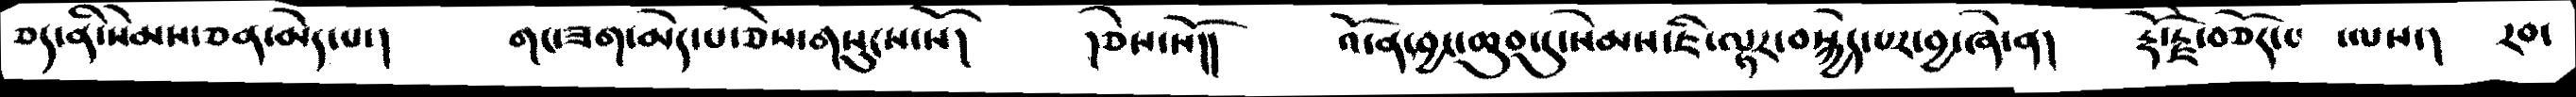ཅད་ནི་སེམས་ཅན་མེད་པ་།  གང་ཟག་མེད་པ་ཅེས་གསུངས་སོ།  །ཅེས་སོ།།  འོ་ན་བྱང་ཆུབ་དུ་སེམས་ཇི་ལྟར་བསྐྱེད་པར་བྱ་ཞེ་ན།   རྡོ་རྗེ་བཅོད་པ  ་ལས་། རབ་
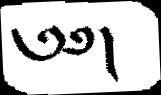༄༅།
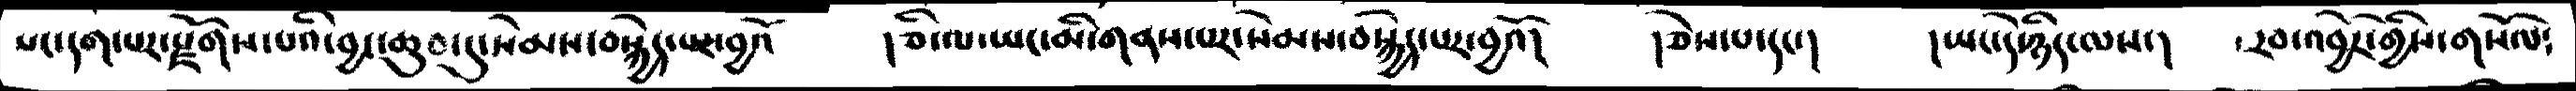སང་དག་པར་རྫོགས་པའི་བྱང་ཆུབ་དུ་སེམས་བསྐྱེད་པར་བྱའོ   །ཅི་ལ་ཡང་མི་གནས་པར་སེམས་བསྐྱེད་པར་བྱའོ།  །ཅེས་པ་དང་།  །ཡང་དེ་ཉིད་ལས་།  རབ་འབྱོར་གྱིས་གསོལ༴
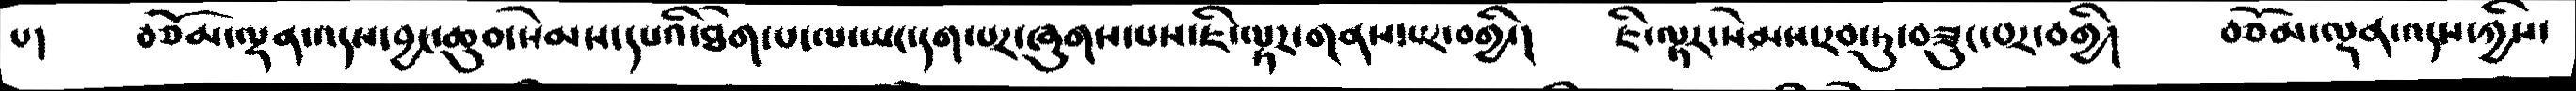པ།  བཅོམ་ལྡན་འདས་བྱང་ཆུབ་སེམས་དཔའི་ཐེག་པ་ལ་ཡང་དག་པར་ཞུགས་པས་ཇི་ལྟར་གནས་པར་བགྱི་།  ཇི་ལྟར་སེམས་རབ་ཏུ་བཟུང་བར་བགྱི།   བཅོམ་ལྡན་འདས་ཀྱིས་
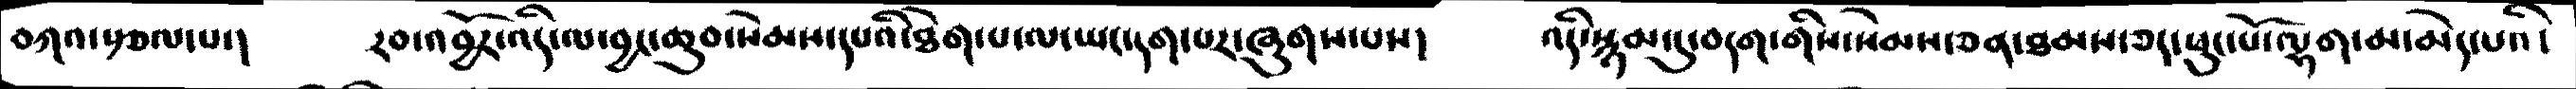བཀའ་སྩལ་པ་།   རབ་འབྱོར་འདི་ལ་བྱང་ཆུབ་སེམས་དཔའི་ཐེག་པ་ལ་ཡང་དག་པར་ཞུགས་པས།  འདི་སྙམ་དུ་བདག་གིས་སེམས་ཅན་ཐམས་ཅད་ཕུང་པོ་ལྷག་མ་མེད་པའི་
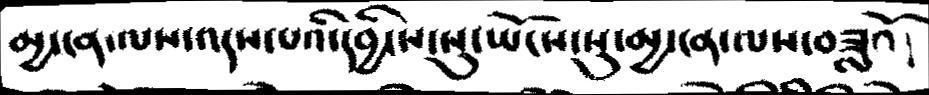མྱ་ངན་ལས་འདས་པའི་དབྱིངས་སུ་ཡོངས་སུ་མྱ་ངན་ལས་བཟླའོ།
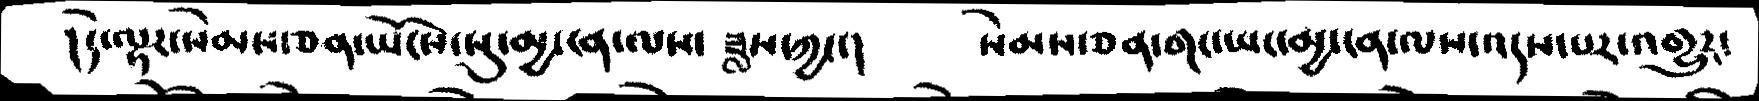།དེ་ལྟར་སེམས་ཅན་ཡོངས་སུ་མྱ་ངན་ལས་ཟླས་ཀྱང་།  སེམས་ཅན་གང་ཡང་མྱ་ངན་ལས་འདས་པར་འགྱུར་
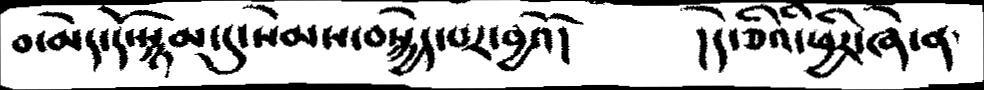བ་མེད་དོ་སྙམ་དུ་སེམས་བསྐྱེད་པར་བྱའོ།  །དེ་ཅིའི་ཕྱིར་ཞེ་ན་
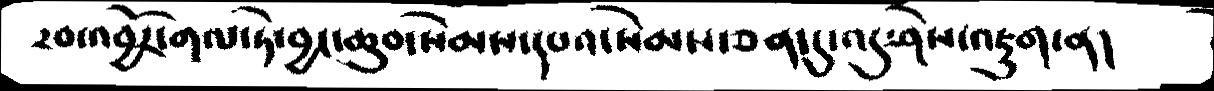རབ་འབྱོར་གལ་ཏེ་བྱང་ཆུབ་སེམས་དཔའ་སེམས་ཅན་དུ་འདུ་ཤེས་འཇུག་ན།
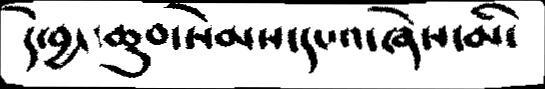དེ་བྱང་ཆུབ་སེམས་དཔའ་ཞེས་མི་
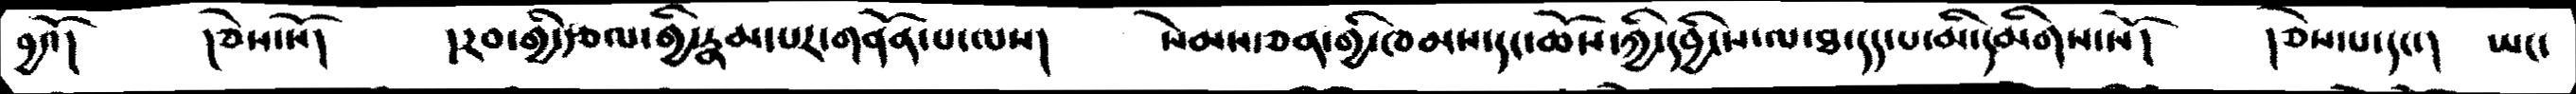བྱའོ།  །ཅེས་སོ།   །རབ་གྱི་རྩལ་གྱི་རྣམ་པར་གནོན་པ་ལས།  སེམས་ཅན་གྱི་ཁམས་དང་ཆོས་ཀྱི་དབྱིངས་ལ་ཐ་དད་པ་མི་དམིགས་སོ།   །ཅེས་པ་དང་། ཡང་
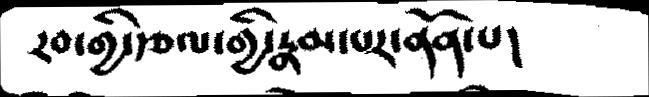རབ་གྱི་རྩལ་གྱི་རྣམ་པར་ནོན་པ།
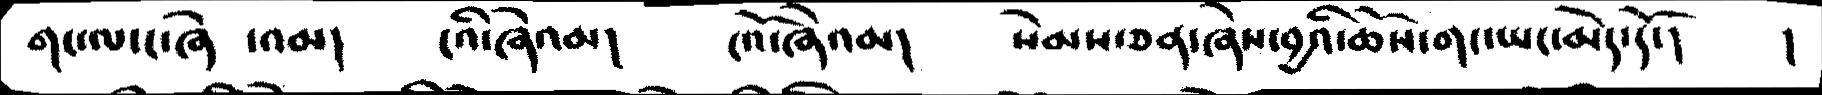གང་ལ་ང་ཞེ  ་འམ།  ངའི་ཞེའམ།  ངའོ་ཞེའམ།   སེམས་ཅན་ཞེས་བྱའི་ཆོས་གང་ཡང་མེད་དོ་།   །
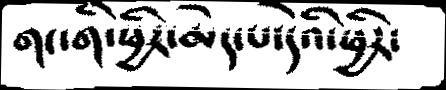གང་གི་ཕྱིར་མེད་པ་དེའི་ཕྱིར་
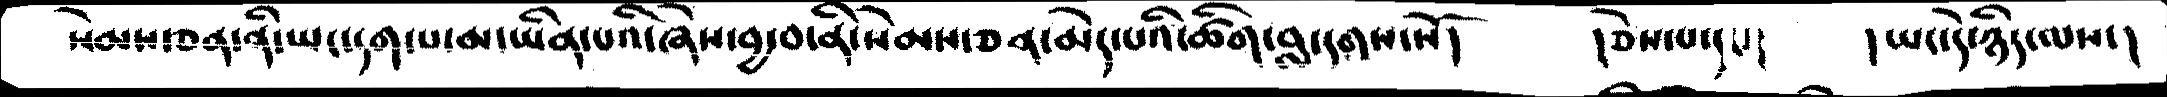སེམས་ཅན་ནི་ཡང་དག་པ་མ་ཡིན་པའི་ཞེས་བྱ་བ་ནི་སེམས་ཅན་མེད་པའི་ཚིག་བླ་དགས་སོ།  །ཅེས་པ་དང་།   །ཡང་དེ་ཉིད་ལས་།
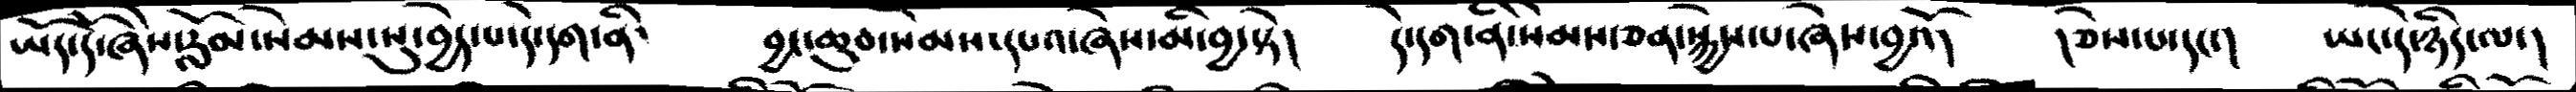ཡོད་དོ་ཞེས་རློམ་སེམས་དུ་བྱེད་པ་དེ་དག་ནི་   བྱང་ཆུབ་སེམས་དཔའ་ཞེས་མི་བྱ་སྟེ།   དེ་དག་ནི་སེམས་ཅན་སྐྱེས་པ་ཞེས་བྱའོ།  །ཅེས་པ་དང་།  ཡང་དེ་ཉིད་ལ་།
